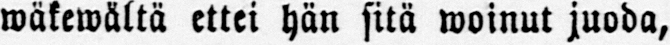wäkewältä ettei hän sitä woinut juoda,
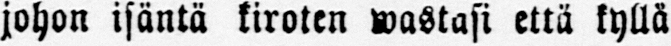johon isäntä kiroten wastasi että kyllä
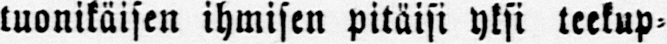tuonikäisen ihmisen pitäisi ylsi teekup-
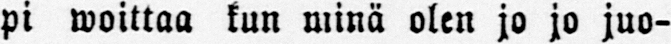pi woittaa kun minä olen jo jo juo-
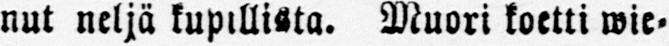nut neljä kupillista. Muori koetti wie-
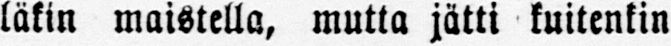läkin maistella, mutta jätti kuitenkin
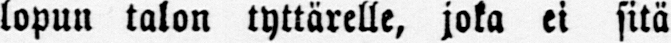lopun talon tyttärelle, joka ei sitä
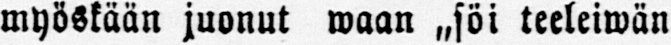myöskään juonut waan „söi teeleiwän
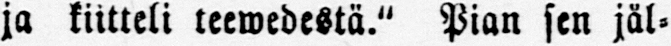ja kiitteli teewedestä." Pian sen jäl-
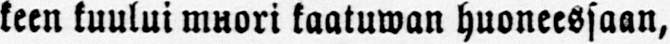keen kuului muori kaatuwan huoneessaan,
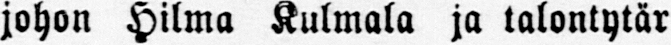johon Hilma Kulmala ja talontytär
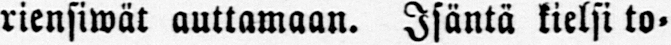riensiwät auttamaan. Isäntä kielsi to-
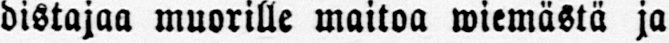distajaa muorille maitoa wiemästä ja
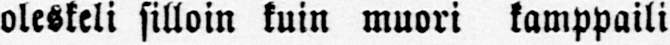oleskeli silloin kuin muori kamppaili
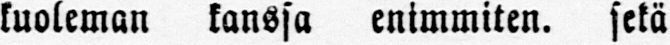kuoleman kanssa enimmiten. sekä
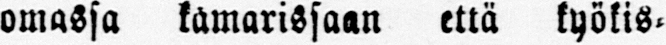omassa kamarissaan että kyökis-
